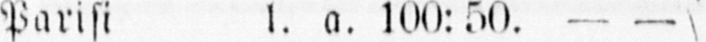Parisi l. a. 100: 50. — —
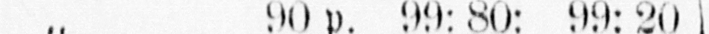„ 90 p. 99: 80: 99: 20
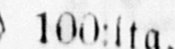100:lta.
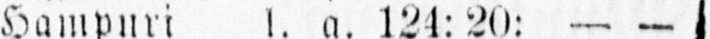Hampuri l. a. 124: 20: — —
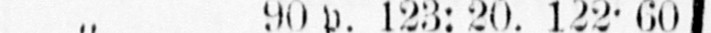„ 90 p. 123: 20. 122 60
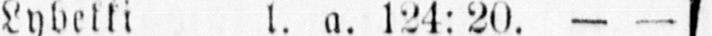Lybekki l. a. 124: 20. — —
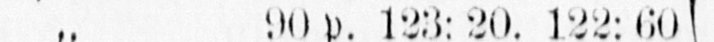„ 90 p. 123: 20. 122: 60
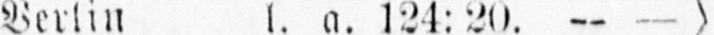Berlin l. a. 124: 20. — —
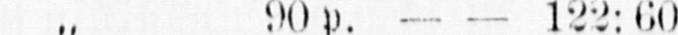„ 90 p. — — 122: 60
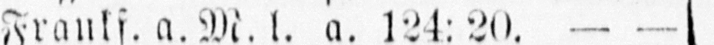Fraukf. a. M. l. a. 124: 20. — —
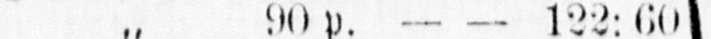„ 90 p. — — 122: 60
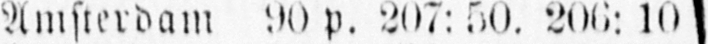Amsterdam 90 p. 207: 50. 206: 10
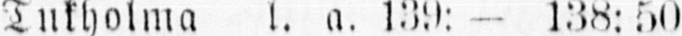Tukholma l. a. 139: — 138: 50
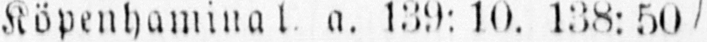Köpenhamina l. a. 139: 10. 138: 50
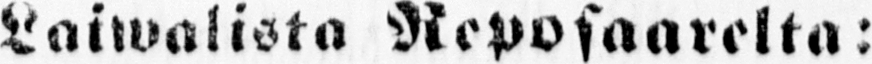Laiwalista Reposaarelta:
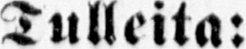Tulleita:
